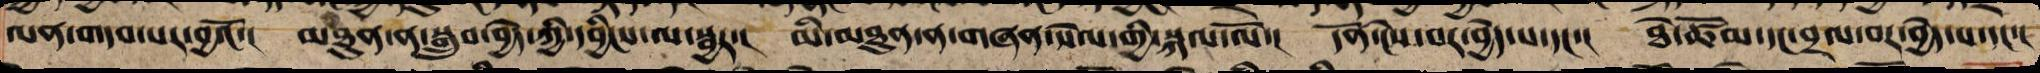ལན་གདབ་པར་བྱའོ་། མཐུན་ན་སྒྲུབ་བྱེད་ཀྱི་དབྱིངས་ལ་སྦྱར་། མི་མཐུན་ན་གཞན་སེལ་གྱི་སྐལ་ལོ་། དོན་ངེས་པར་བྱེད་པ་དང་། ཐེ་ཚོམ་དང་བྲལ་བར་བྱེད་པ་དང་།
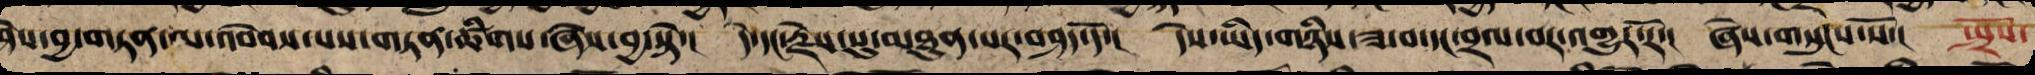ཤེས་བྱ་གཏན་ལ་འབེབས་པས་གཏན་ཚིགས་ཞེས་བྱ་སྟེ་། དེ་དང་རྗེས་སུ་མཐུན་པར་བཤད་དོ་། དེས་ཡིད་གཉིས་ཟ་བ་དང་བྲལ་བར་འགྱུར་རོ་། ཞེས་གསུངས་སོ་། སྤྲོས་
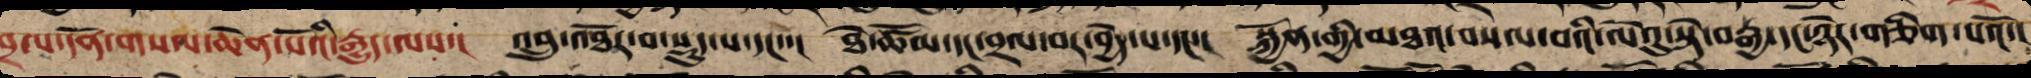བྲལ་དོན་གསལ་ཆེན་པོའི་རྒྱུད་ལས་། འབྲུ་འཐོར་བ་སྡུད་པ་དང་་། ཐེ་ཚོམ་དང་བྲལ་བར་བྱེད་པ་དང་། སྐྱོན་གྱི་མཐའ་བསལ་བའི་ལེའུ་སྟེ་བརྒྱ་དང་ཉེར་གཅིག་པའོ་།།
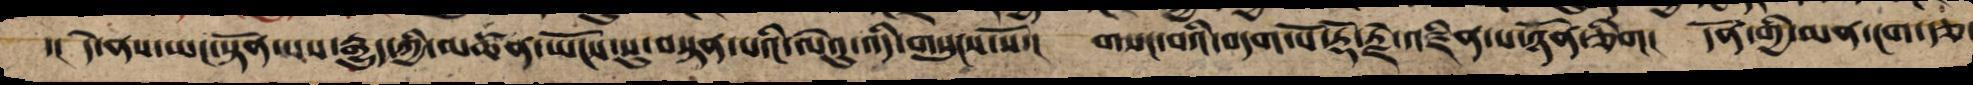་། དེ་ནས་ཡང་སྟོན་པས་རྒྱུད་ཀྱི་མཚན་ཡོངས་སུ་བསྟན་པའི་ལེའུ་འདི་གསུངས་སོ་། གསང་བའི་བདག་པོ་རྡོ་རྗེ་འཛིན་པ་ཉོན་ཅིག། དོན་གྱི་མན་ངག་རྩ་
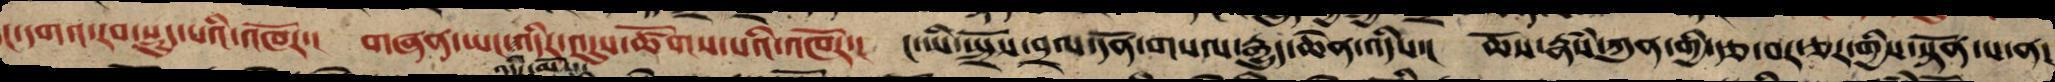ང་དགའ་རབ་སྡུད་པའི་འཁོར་། གཞན་ཡང་འདིར་འདུས་ཚོགས་པའི་འཁོར་། ང་ཡི་སྤྲོས་བྲལ་དོན་གསལ་རྒྱུད་ཆེན་འདིས་། ཆོས་རྣཾས་ཀུན་གྱི་རྩ་བར་ཅར་གྱིས་སྟོན་པ་ན།
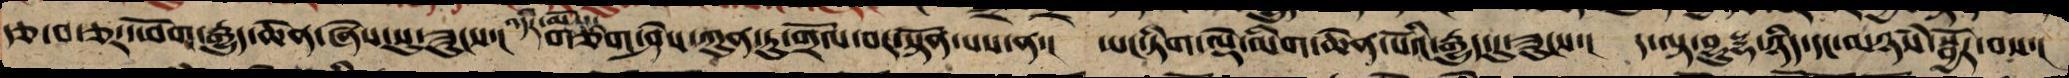རྩ་བ་ཅར་ཕོག་རྒྱུད་ཆེན་ཞེས་སུ་ཟུངས་། གཅིག་ཤེས་ཀུན་ཏུ་གྲོལ་བར་སྟོན་པས་ན་། ཡང་ཏིག་ལྡེ་མིག་ཆེན་པོའི་རྒྱུད་དུ་ཟུངས་། ད་ལྟ་བུདྡྷ་ཉིད་དང་མཉཾས་སྦྱོར་བས་།
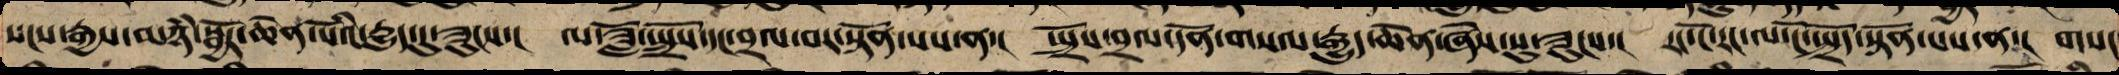སངས་རྒྱས་མཉཾ་སྦྱོར་ཆེན་པོའི་རྒྱུད་དུ་ཟུངས་། ལ་ཟློ་སྤྲོས་དང་བྲལ་བར་སྟོན་པས་ན་། སྤྲོས་བྲལ་དོན་གསལ་རྒྱུད་ཆེན་ཞེས་སུ་ཟུངས་། རང་ངོ་རང་ལ་ངོ་སྤྲོད་སྟོན་པས་ན་། གསང
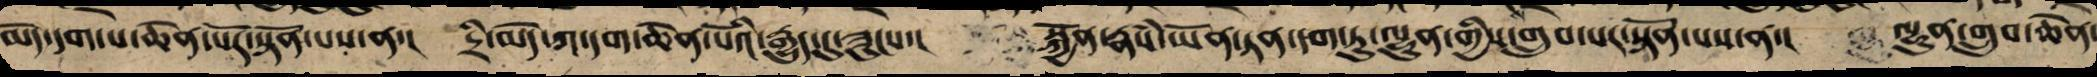མེད་དག་པ་ཆེན་པོར་སྟོན་པས་ན་། དྲི་མེད་ཀ་དག་ཆེན་པོའི་རྒྱུད་དུ་ཟུངས་། སྐྱོན་རྣཾས་ཡོན་ཏན་དག་ཏུ་ལྷུན་གྱིས་གྲུབ་པར་སྟོན་པས་ན་། ལྷུན་གྲུབ་ཆེན་
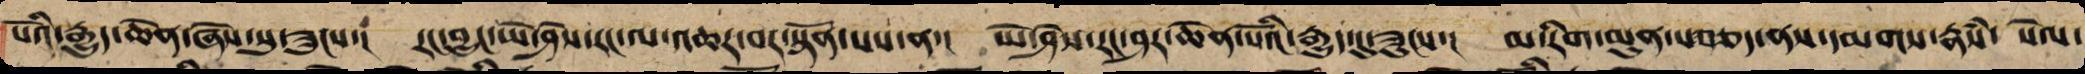པོའི་རྒྱུད་ཆེན་ཞེས་སུ་ཟུངས་། རང་བྱུང་ཡེ་ཤེས་རང་ལ་འཆར་བར་སྟོན་པས་ན་། ཡེ་ཤེས་རང་ཤར་ཆེན་པོའི་རྒྱུད་དུ་ཟུངས་། མ་རིག་མུན་པ་རྩད་ནས་དམགས་རྣཾས་ སེལ་
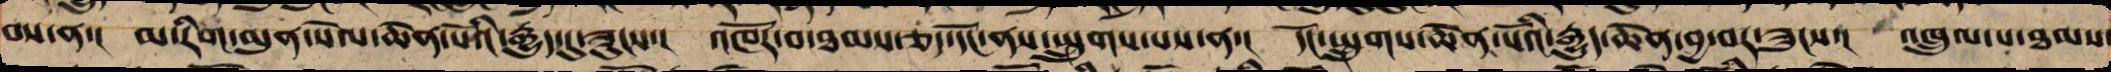བས་ན་། མ་རིག་མུན་སེལ་ཆེན་པོའི་རྒྱུད་དུ་ཟུངས་། འཁོར་བ་ཐམས་ཅད་དོང་ནས་སྤྲུགས་པས་ན་། དོང་སྤྲུགས་ཆེན་པོའི་རྒྱུད་ཆེན་བྱ་བར་ཟུངས་། འཁྲུལ་པ་ཐམས་
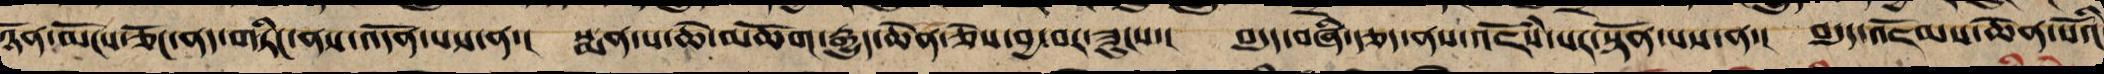ཉོན་མོངས་གཅོང་ནད་གཏིང་ནས་འདོན་པས་ན་། སྨན་པ་ཆེ་མཆོག་རྒྱུད་ཆེན་ཅེས་བྱ་བར་ཟུངས་། བདུད་བཞི་རྩད་ནས་འཇོཾས་པར་སྟོན་པས་ན་། བདུད་འཇོམས་ཆེན་པོའི
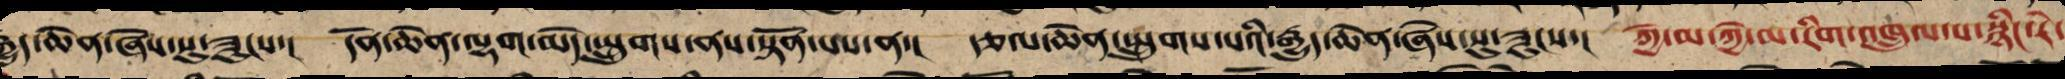རྒྱུད་ཆེན་ཞེས་སུ་ཟུངས་། དོན་ཆེན་ལྷག་མེད་སྤྲུགས་ནས་སྟོན་པས་ན་། རྩལ་ཆེན་སྤྲུགས་པའི་རྒྱུད་ཆེན་ཞེས་སུ་ཟུངས་། ཀྱེ་མ་ཀྱེ་མ་རིག་འཁྲུལ་པ་སྙིང་རེ་
